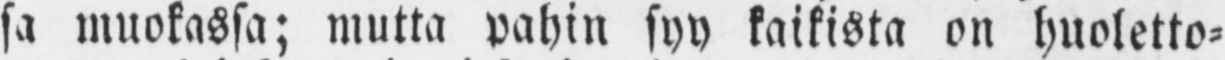sa muokassa; mutta pahin syy kaikista on huoletto-
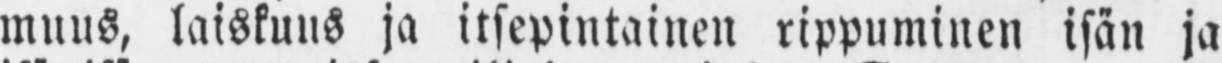muus, laiskuus ja itsepintainen rippuminen isän ja
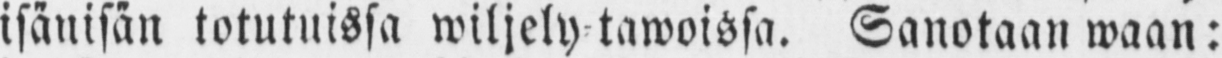isänisän totutuissa wiljely-tawoissa. Sanotaan waan:
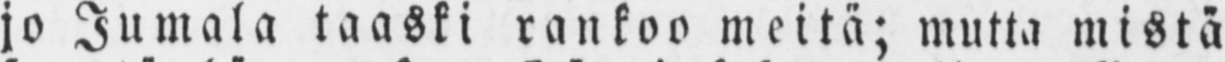jo Jumala taaski rankoo meitä; mutta mistä
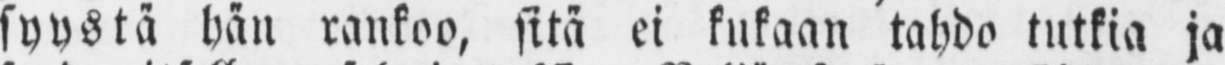syystä hän rankoo, sitä ei kukaan tahdo tutkia ja
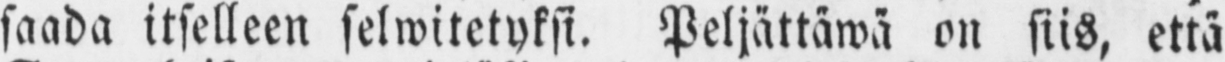saada itselleen selwitetyksi. Peljättäwä on siis, että
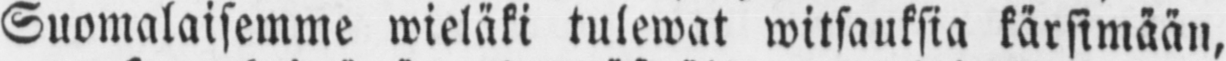Suomalaisemme wieläki tulewat witsauksia kärsimään,
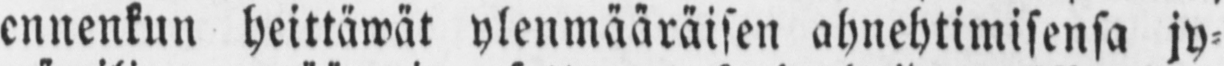ennenkun heittäwät ylenmääräisen ahnehtimisensa jy-
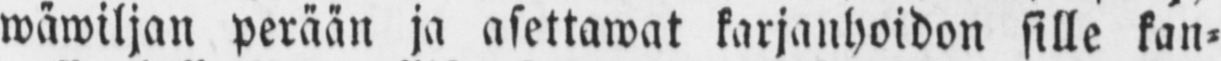wäwiljan perään ja asettawat karjanhoidon sille kau-
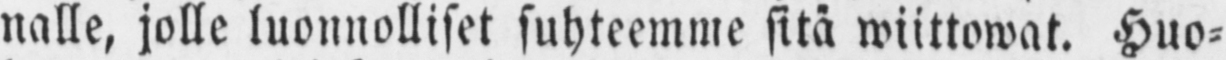nalle, jolle luonnolliset suhteemme sitä wiittowat. Huo-
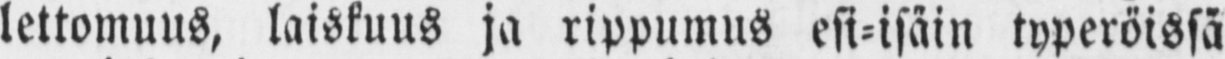lettomuus, laiskuus ja rippumus esi-isäin typeröissä
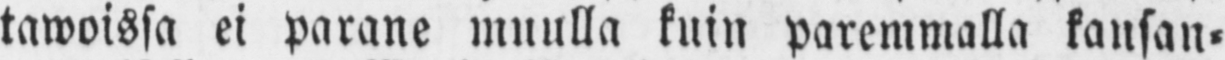tawoissa ei parane muulla kuin paremmalla kansan-
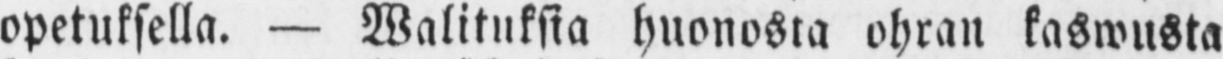opetuksella. — Walituksia huonosta ohran kaswusta
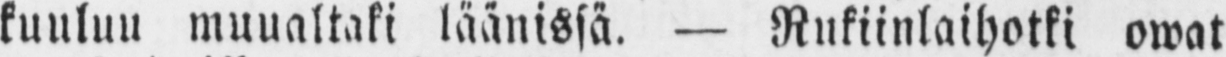kuuluu muualtaki läänissä. — Rukiinlaihotki owat
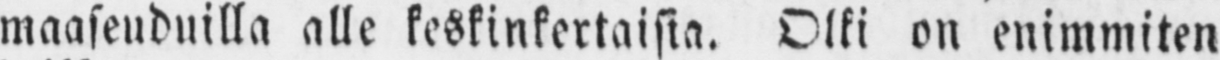maaseuduilla alle keskinkertaisia. Olki on enimmiten
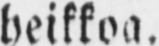heikkoa.
